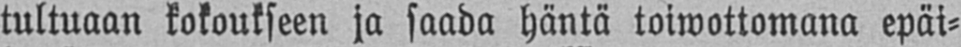tultuaan kokoukseen ja saada häntä toiwottomana epäi-
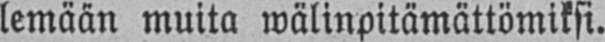lemään muita wälinpitämättömiksi.
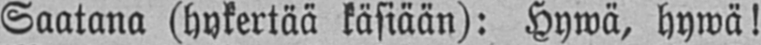Saatana (hykertää käsiään): Hywä, hywä!
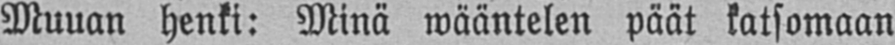Muuan henki: Minä wääntelen päät katsomaan
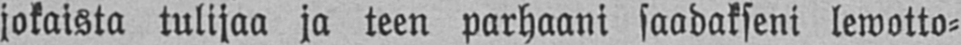jokaista tulijaa ja teen parhaani saadakseni lewotto-
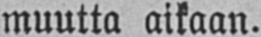muutta aikaan.
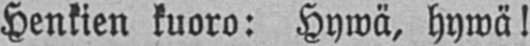Henkien kuoro: Hywä, hywä!
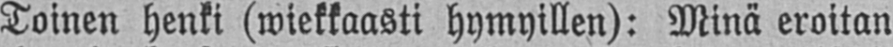Toinen henki (wiekkaasti hymyillen): Minä eroitan
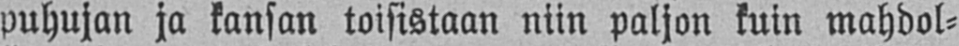puhujan ja kansan toisistaan niin paljon kuin mahdol-
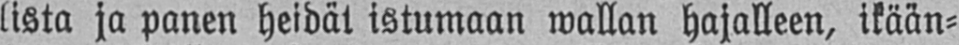lista ja panen heidät istumaan wallan hajalleen, ikään-
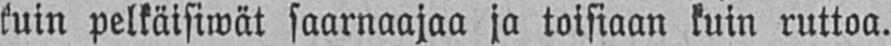kuin pelkäisiwät saarnaajaa ja toisiaan kuin ruttoa.
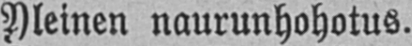Yleinen naurunhohotus.
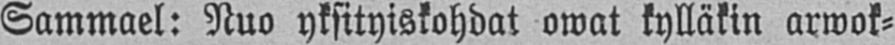Sammael: Nuo yksityiskohdat owat kylläkin arwok-
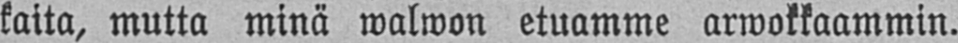kaita, mutta minä walwon etuamme arwokkaammin.
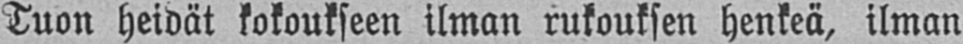Tuon heidät kokoukseen ilman rukouksen henkeä, ilman
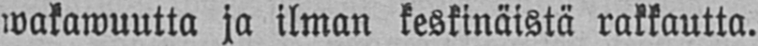wakawuutta ja ilman keskinäistä rakkautta.
